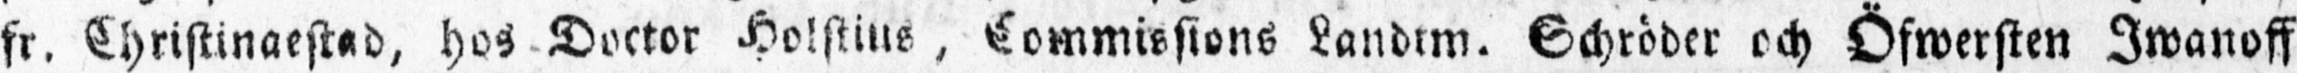fr. Christinaestad, hos Doctor Holstius, Commissions Landtm. Schröder cch Öfwersten Iwanoff
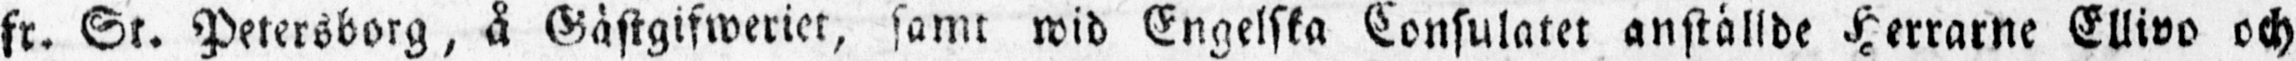fr. St. Petersborg, å Gästgifweriet, samt wid Engelska Consulatet anställde Herrarne Ellivo och
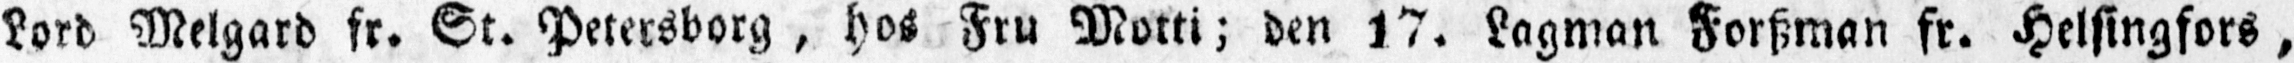Lord Melgard fr. St. Petersborg, hos Fru Motti; den 17. Lagman Forszman fr. Helsingfors,
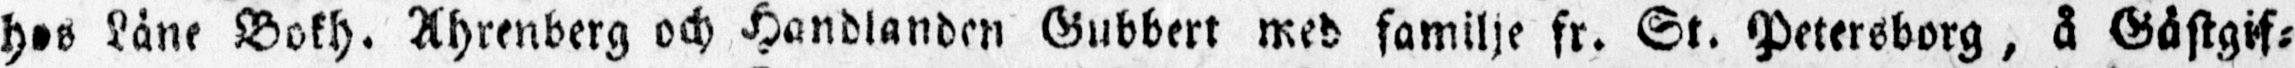hos Läne Bokh. Ahrenberg och Handlanden Gubbert med familje fr. St. Petersborg, å Gästgif-
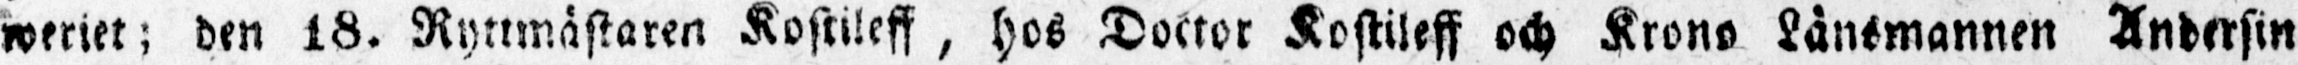weriet ; den 18. Ryttmästaren Kostileff, hos Doctor Kostileff och Krons Länsmannen Andersin
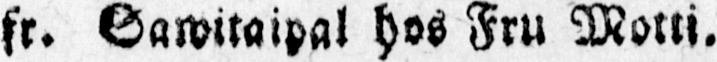fr. Sawitaipal hos Fru Motti.
